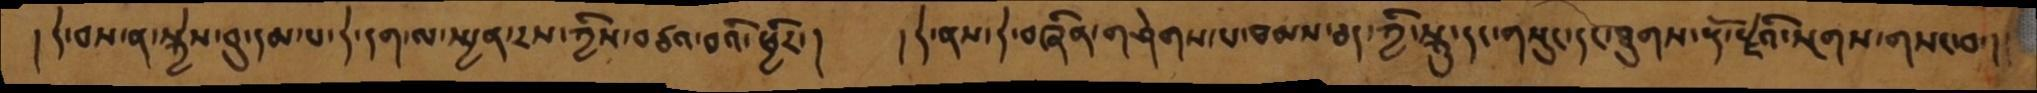།དེ་བས་ན་སྐྱེས་བུ་དམ་པ་དེ་དག་ལ་སྤྱན་རས་ཀྱིས་བཙའ་བའི་ཕྱིར་།  །དེ་ནས་དེ་བཞིན་གཤེགས་པ་ཐམས་ཅད་ཀྱི་སྐུ་དང་གསུང་དང་ཐུགས་རྡོ་རྗེའི་སྔགས་གསང་བ་།
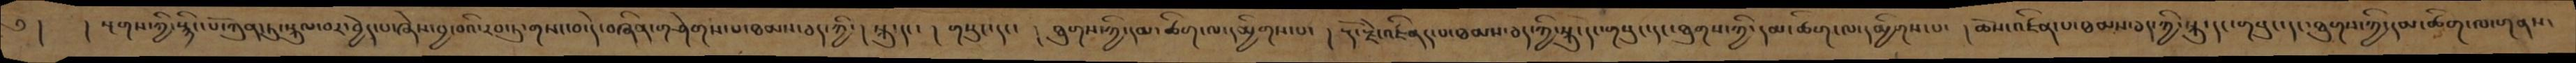༅།   །སྔགས་ཀྱི་སྙིང་པོ་ཀུན་ཏུ་སྐུལ་བར་བྱེད་པ་ཞེས་བྱ་བའི་རབ་ཏུ་གསང་བ་དེ་བཞིན་གཤེགས་པ་ཐམས་ཅད་ཀྱི་། སྐུ་དང་། གསུང་དང་།  ཐུགས་ཀྱི་དམ་ཚིག་ལ་དམྱིགས་པ་། རྡོ་རྗེ་འཛིན་པ་ཐམས་ཅད་ཀྱི་སྐུ་དང་གསུང་དང་ཐུགས་ཀྱི་དམ་ཚིག་ལ་དམྱིགས་པ་། ཆོས་འཛིན་པ་ཐམས་ཅད་ཀྱི་སྐུ་དང་གསུང་དང་ཐུགས་ཀྱི་དམ་ཚིག་ལ་གནས་
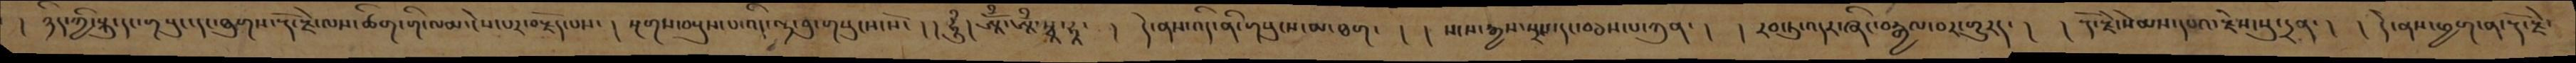།  ཉིད་ཀྱི་སྐུ་དང་གསུང་དང་ཐུགས་རྡོ་རྗེ་ལས་ཚིག་གི་ལམ་ངེས་པར་བརྗོད་པས་།  སྔགས་བསྡུས་པ་འདི་ལྟ་བུ་གསུངས་སོ་།། ཧཱུྃ། ཨཱོྃ་ཨཱྃསྭཱ་ཧཱ་ །  དེ་ནས་འདི་ནི་གསུངས་མ་ཐག་ ། ། སངས་རྒྱས་སྲས་དང་བཅས་པ་ཀུན་།  ། རབ་ཏུ་འདར་ཞིང་བརྒྱལ་བར་གྱུརད་། ། རྡོ་རྗེ་སེམས་དཔའ་རྗེས་སུ་དྲན་། ། དེ་ནས་ཕྱག་ན་རྡོ་རྗེ་
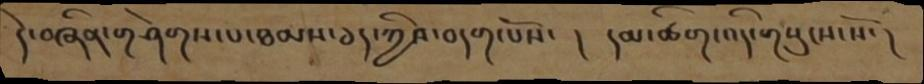དེ་བཞིན་གཤེགས་པ་ཐམས་ཅད་ཀྱིས་བདག་པོས་།  ། དམ་ཚིག་འདི་གསུངས་སོ་།
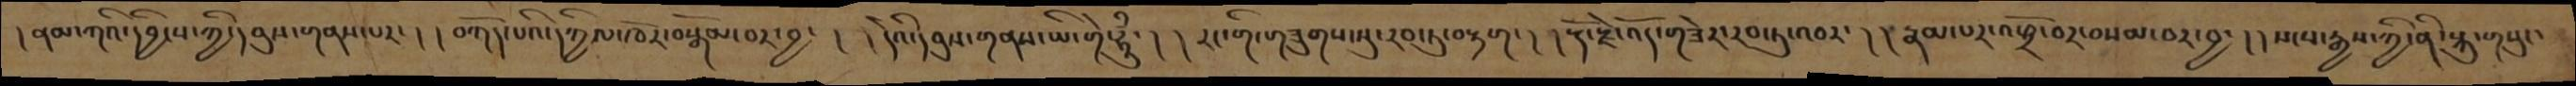།ནམ་ཀའི་དབྱིངས་ཀྱི་དབུས་གནས་པར་།  །བཀོད་པའི་དཀྱིལ་འཁོར་བསྒོམ་པར་བྱ་།  ། དེའི་དབུས་གནས་ཡི་གེ་ཧཱུྃ་།  །རང་གི་གཟུགས་སུ་རབ་ཏུ་བརྟག་། །རྡོ་རྗེ་འོད་ཟེར་རབ་ཏུ་འབར་། །རྣམ་པར་འཕྲོ་བར་བསམ་པར་བྱ་། །སངས་རྒྱས་ཀྱི་ནི་སྐུ་གསུང་
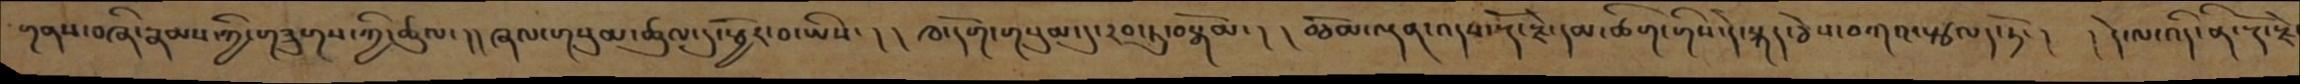གནས་གཞི་རྣམས་ཀྱི་གཟུགས་ཀྱི་ཚུལ་།། ཞལ་གསུམ་ཚུལ་དུ་སྦྱོར་བ་ཡིས་། །ཁ་དོག་གསུམ་དུ་རབ་ཏུ་བསྒོམ་། །བཅོམ་ལྡན་འདས་རྡོ་རྗེ་དམ་ཚིག་གིས་དེ་སྐད་ཅེས་བཀའ་སྩལ་ཏོ་། །དེ་ལ་འདི་ནི་རྡོ་རྗེ་
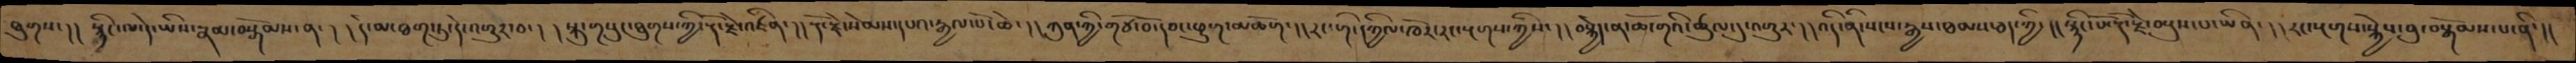ཐུགས་།།  སྙིང་ལ་དེ་ཡིས་རྣམ་བསྒོམས་ན་།  །དེ་མ་ཐག་ཏུ་དེ་འགྱུར་བ་།  །སྐུ་གསུང་ཐུགས་ཀྱི་རྡོ་རྗེ་འཛིན་།  །རྡོ་རྗེ་སེམས་དཔའ་རྒྱལ་པོ་ཆེ་། །ཀུན་ཀྱི་གཙོ་བོ་དབང་ཕྱུག་མཆོག་།།རང་གི་དཀྱིལ་འཁོར་རང་སྔགས་ཀྱིས་།།བསྐྱེད་ན་ཆོ་གའི་ཚུལ་དུ་འགྱུར་། །འདི་ནི་སངས་རྒྱས་ཐམས་ཅད་ཀྱི་།། སྙིང་པོ་རྡོ་རྗེ་བསྡུས་པ་ཡིན་། །རང་སྔགས་སྐྱེས་བུ་བསྒོམས་པ་ནི་།།
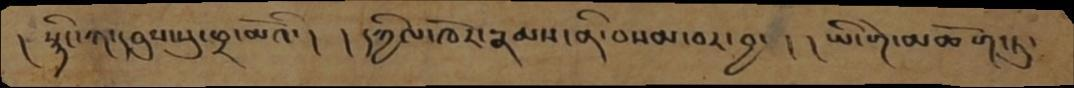།  སྙིང་ཀ་དབུས་སུ་ཕྲ་མོའི་།  །དཀྱིལ་འཁོར་རྣམས་ནི་བསམ་བར་བྱ་། །ཡི་གེ་མཆོག་ཏུ་
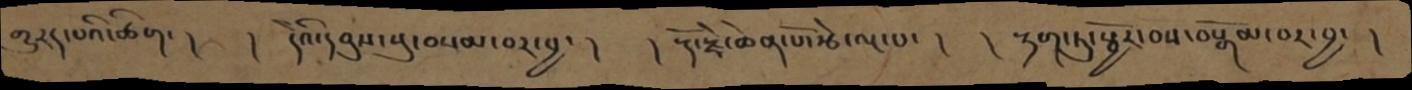གྱུརད་པའི་ཚིག་། །དེའི་དབུས་སུ་བསམ་པར་བྱ་།  །རྡོ་རྗེ་ཆེན་པོ་རྩེ་ལྔ་པ་།  །རྟག་ཏུ་སྦྱོར་བས་བསྒོམ་པར་བྱ་།
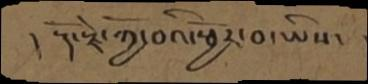། རྡོ་རྗེ་ཀྱོ་བའི་སྦྱོར་བ་ཡིས་
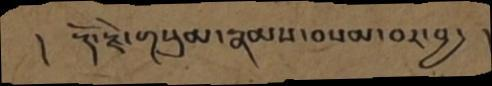།  རྡོ་རྗེ་གསུམ་རྣམས་བསམ་བར་བྱ་  །
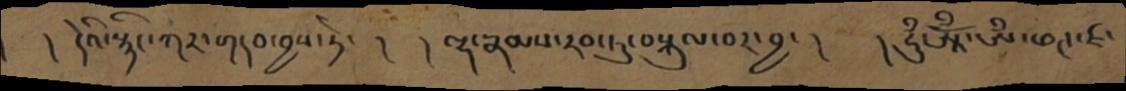། དེའི་སྙིང་ཀར་གདབ་བྱས་ཏེ་ །  །ལྷ་རྣམས་རབ་ཏུ་བསྐུལ་བར་བྱ་།   །ཧུཾ་ཨཱོྃ་ཨྃ་ཕཊ་ཛ་
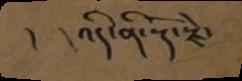།  །འདི་ནི་རྡོ་རྗེ་
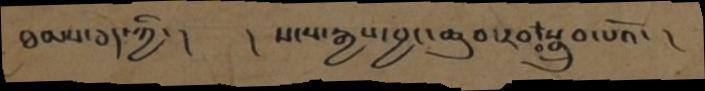ཐམས་ཅད་ཀྱི་།    ། སངས་རྒྱས་བྱང་ཆུབ་རབ་བསྒྲུབ་པའོ་།
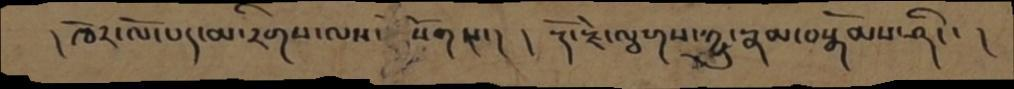།ཁོར་ལོ་པད་མ་རིགས་ལས་སོགས་། །རྡོ་རྗེ་ལྕགས་ཀྱུ་རྣམ་བསྒོམས་ཤིང་།
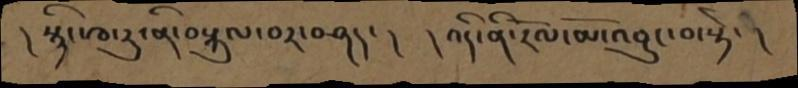།སྙིང་ཁ་རུ་ནི་བསྐུལ་བར་བཤད་། །འདི་ནི་རོལ་མོ་འབྱུང་བ་སྟེ་།
